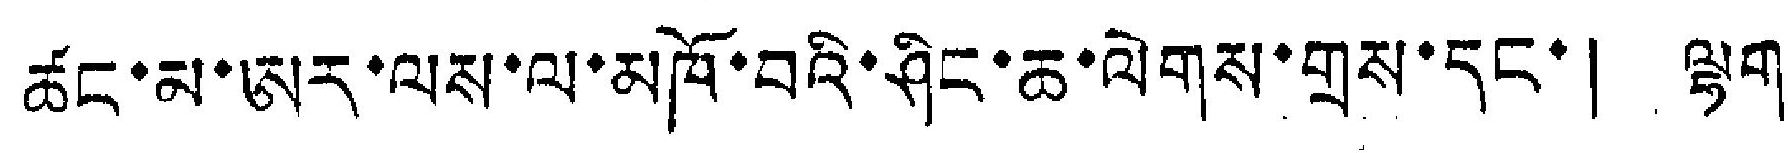ཚང་མ་ཨར་ལས་ལ་མཁོ་བའི་ཤིང་ཆ་ལེགས་གྲས་དང་། ལྷག་
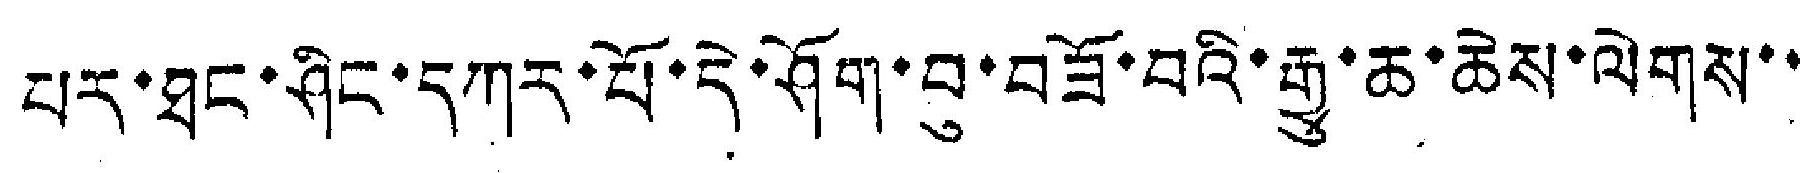པར་ཐང་ཤིང་དཀར་པོ་དེ་ཤོག་བུ་བཟོ་བའི་རྒྱུ་ཆ་ཆེས་ལེགས་་
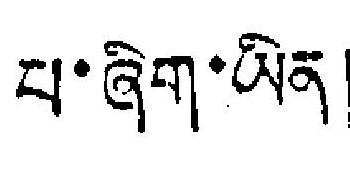པ་ཞིག་ཡིན།
